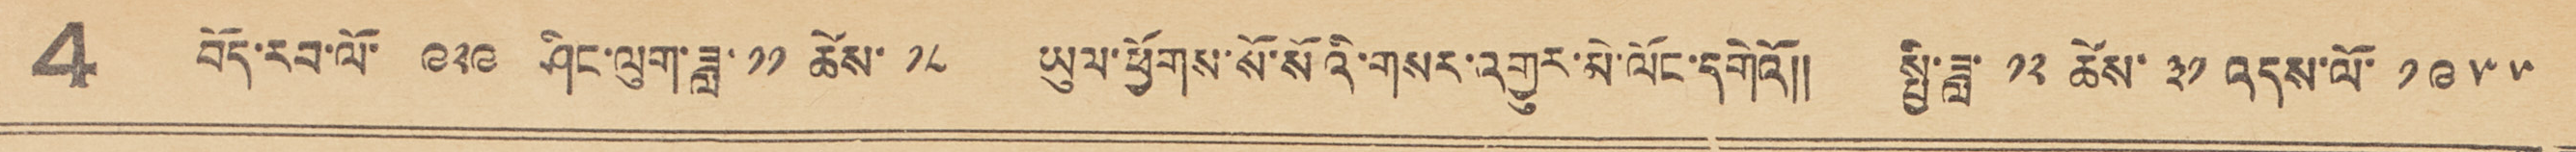4 བོད་རབ་ལོ་ ༩༢༩ ཤིང་ལུག་ཟླ་ ༡༡ ཚེས་ ༡༨ ཡུལ་ཕྱོགས་སོ་སོའི་གསར་འགྱུར་མེ་ལོང་དགེའོ།། སྤྱི་ཟླ་ ༡༢ ཚེས་ ༣༡ འདས་ལོ་ ༡༩༥༥
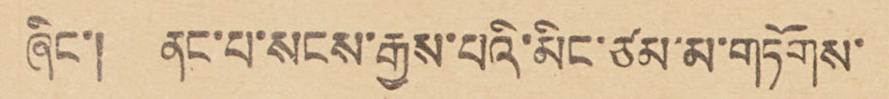ཞིང་། ནང་པ་སངས་རྒྱས་པའི་མིང་ཙམ་མ་གཏོགས་
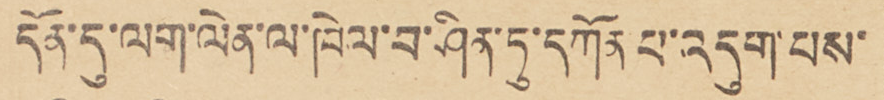དོན་དུ་ལག་ལེན་ལ་ཁེལ་བ་ཤིན་ཏུ་དཀོན པ་འདུག་པས་
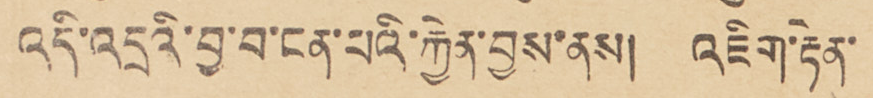འདི་འདྲའི་བྱ་བ་ངན་པའི་རྐྱེན་བྱས་ནས། འཇིག་རྟེན་
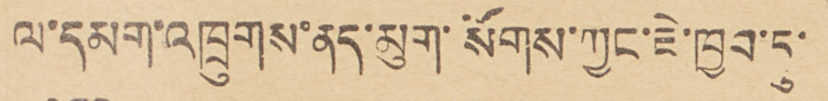ལ་དམག་འཁྲུགས་ནད་མུག་སོགས་ཀྱང་ཇེ་ཁྱབ་ཏུ་
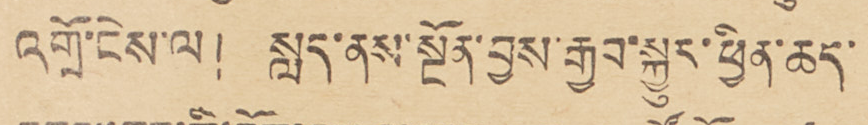འགྲོ་ངེས་ལ །  སླད་ནས་སྔོན་བྱས་རྒྱབ་སྐྱུར་ཕྱིན་ཆད་
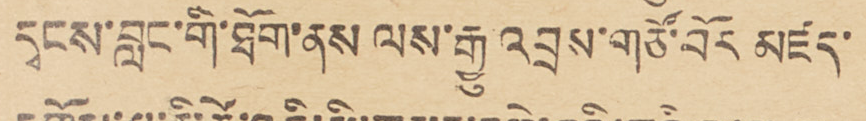དྭངས་བླང་གི་ཐོག་ནས ལས་རྒྱུ་འབྲས་གཙོ་བོར མཛད་
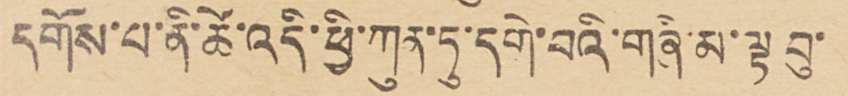དགོས་པ་ནི་ཚེ་འདི་ཕྱི་ཀུན་ཏུ་དགེ་བའི་གཞི་མ་ལྟ བུ་
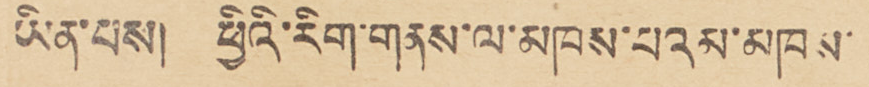ཡིན་པས། ཕྱིའི་རིག་གནས་ལ་མཁས་པའམ་མཁས་
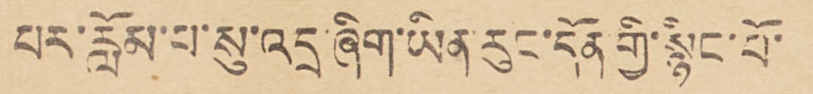པར་རློམ་པ་སུ་འདྲ་ཞིག་ཡིན་རུང་དོན་གྱི་སྙིང་པོ་
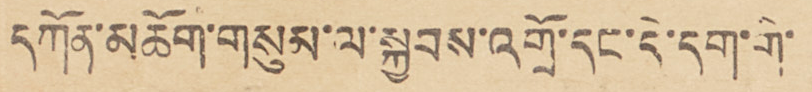དཀོན་མཆོག་གསུམ་ལ་སྐྱབས་འགྲོ་དང་དེ་དག་གི་
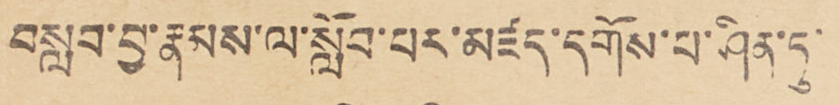བསླབ་བྱ་རྣམས་ལ་སློབ་པར་མཛད་དགོས་པ་ཤིན་ཏུ་
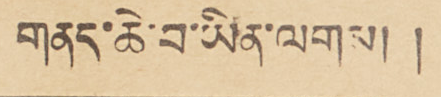གནད་ཆེ་བ་ཡིན་ལགས། །
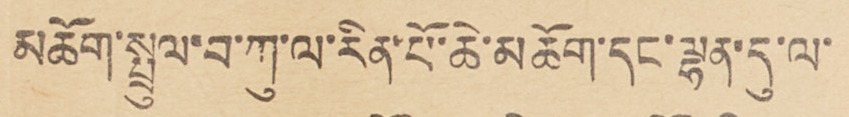མཆོག་སྤྲུལ་བ་ཀ་ལ་རིན་པོ་ཆེ་མཆོག་དང་ལྷན་དུ་ལ་
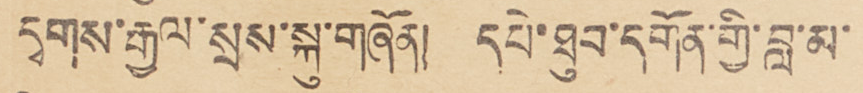དྭགས་རྒྱལ་སྲས་སྐུ་གཞོན། དཔེ་ཐུབ་དགོན་གྱི་བླ་མ་
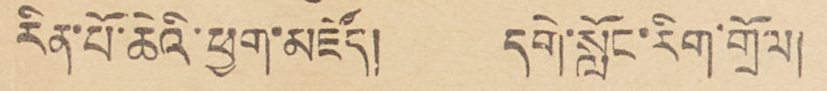རིན་པོ་ཆེའི་ཕྱག་མཛོད།     དགེ་སློང་རིག་གྲོལ།
